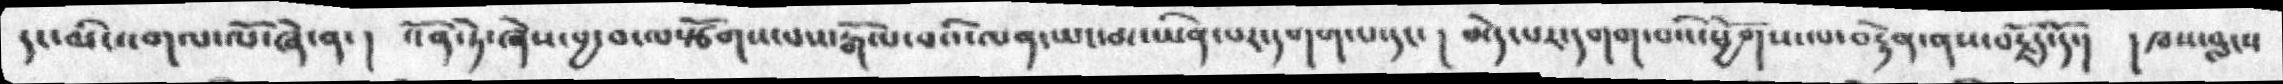དང་མི་འགལ་ལོ་ཞེས་ན་།  འོན་ཏེ་ཞེས་བྱ་བ་ལསྩོགས་པས་རྒོལ་བའི་ལན་ཡང་མ་ཡིན་པར་དགག་པ་དང་། མེད་པར་དགག་པའི་ཕྱོགས་ལ་བརྟེན་ནས་བརྗོད་དོ་།  །ཁས་བླངས
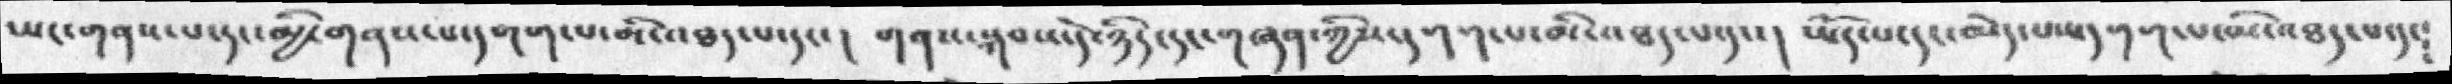ཡང་གནས་པ་དང་མྱི་གནས་པ་དགག་པ་མི་འཐད་པ་དང་། གནས་སྐབས་དེ་ཉིད་དང་གཞན་ཀྱིས་དགག་པ་མི་འཐད་པ་དང་།  ཡོད་པ་དང་མེད་པས་དགག་པ་མི་འཐད་པ་དང༴
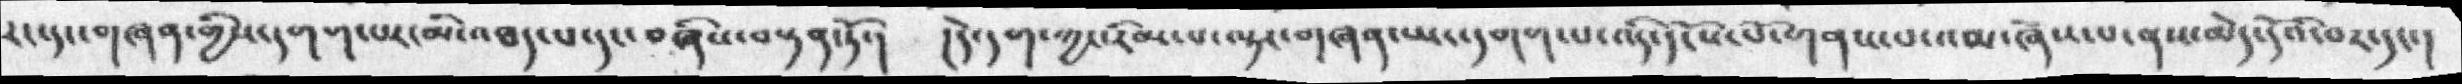རང་དང་གཞན་གྱིས་དགག་པར་མི་འཐད་པ་དང་བཞཱིས་བསྟན་ཏོ་།  །དེ་དག་ཀྱང་རིམ་པ་ལྟར་གཞན་ཡང་དགག་པ་འདི་དངོས་པོ་གནས་པ་འམ་ཞེས་པ་ནས་མེད་དེའི་བར་དང་།
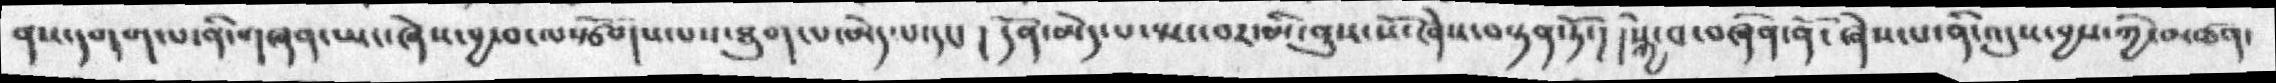ནས་དགག་པ་ནི་གཞན་ཡང་ཞེས་བྱ་བ་ལསྩོགས་པས་ཐུག་པ་མེད་པ་དང་། དོན་མེད་པ་སྤང་བར་མི་ནུས་སོ་ཞེས་བསྟན་ཏོ་། །སྐྱེ་བ་བཞིན་ནོ་ཞེས་པ་ནི་འདུས་བྱས་ཀྱི་མཚན་
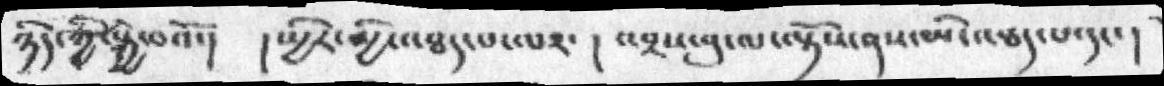ཉིད་ཀྱི་སྐྱེ་བའོ་།  །སྤྱིར་མྱི་འཐད་པ་ལར་། འབྲས་བུ་ལ་ལྟོས་ནས་མི་འཐད་པ་དང་།
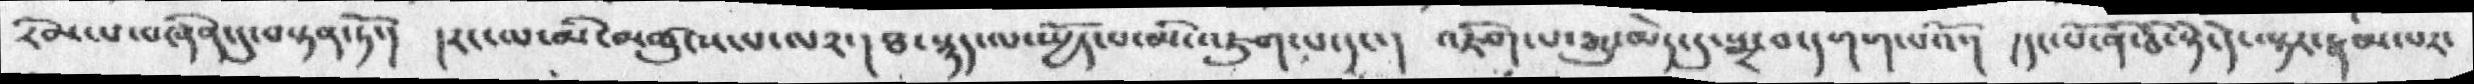རིམ་པ་བཞིན་དུ་བསྟན་ཏོ་།  །རང་ལ་མི་མཚུངས་པ་ལ༢་། ཐ་སྙད་ལ་སྤྱོད་པ་མི་འཇུག་པ་དང་།  འཇིག་པ་རྒྱུ་མེད་དུ་སྨྲ་བ་དགག་པའོ་།  །དང་པོ་ནི་ཅི་སྟེ་དེ་ལྟར་རྣམ་པར་
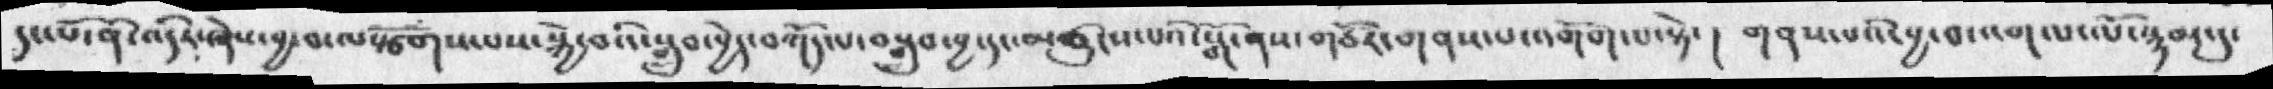དང་པོ་ནི་འདིར་ཞེས་བྱ་བ་ལསྩོགས་པས་སྐྱེ་བའི་སྒྲུབ་བྱེད་བཀོད་པ་བསྒྲུབ་བྱ་དང་མཚུངས་པའི་སྒོ་ནས་གཙོར་གནས་པ་འགོག་པ་སྟེ་།  གནས་པའི་བྱ་བ་འགལ་ལོ་སྙམ་དུ་
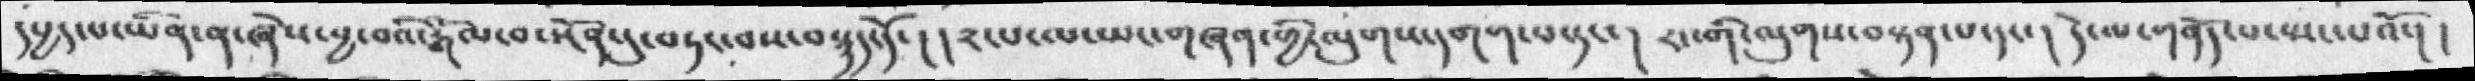དཔྱད་པ་ཡིན་ན་ཞེས་བྱ་བའི་རྒོལ་བ་སྔོན་དུ་བཏང་བས་བསྙད་དོ་། །༢་པ་ལ་ཡང་གཞན་གྱི་ལུགས་དགག་པ་དང་།  རང་གི་ལུགས་བསྟན་པ་དང་། དེ་ལ་གནོད་པ་སྤང་པའོ་། །
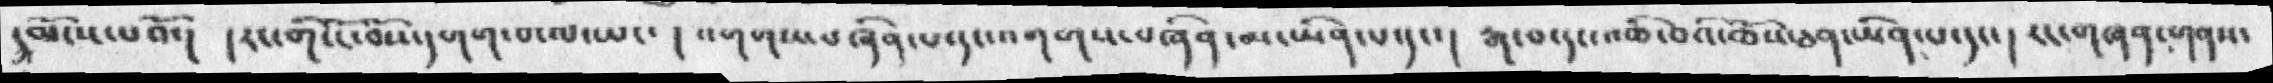དམོངས་པའོ་། རང་གི་ངོ་བོས་དགག་པ་ལ་ཡང་། འགགས་བཞིན་པ་དང་འགགས་བཞིན་མ་ཡིན་པ་དང་། རྒ་བ་དང་འཆི་བའི་ཆོས་ཅན་ཡིན་པ་དང་། རང་གཞན་གནས་
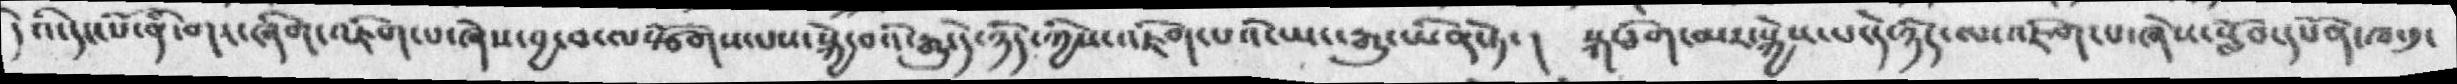དེའི་དང་པོ་ནི་གང་ཞིག་འཇིག་པ་ཞེས་བྱ་བ་ལསྩོགས་པས་སྐྱེ་བའི་རྒྱུ་དེ་ཉིད་ཀྱིས་འཇིག་པའི་ཡང་རྒྱུ་ཡིན་ཏེ་། སྐ་ཅིག་མར་སྐྱེས་པ་དེ་ཉིད་ལ་འཇིག་པ་ཞེས་སློབ་དཔོན་ཁ་༡་
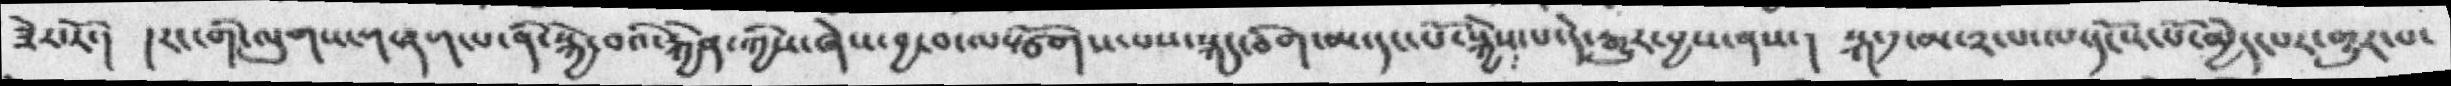ཟེར་རོ་།  །རང་གི་ལུགས་གཞག་པ་ནི་སྐྱེ་བའི་རྐྱེན་ཀྱིས་ཞེས་བྱ་བ་ལསྩོགས་པས་སྐད་ཅིག་མ་དང་པོ་སྐྱེས་པ་དེ་རྒྱུར་བྱས་ནས་།   སྐ་༡་མ་༢་པ་ལ་དངོས་པོ་མྱེད་པར་གྱུར་པ་
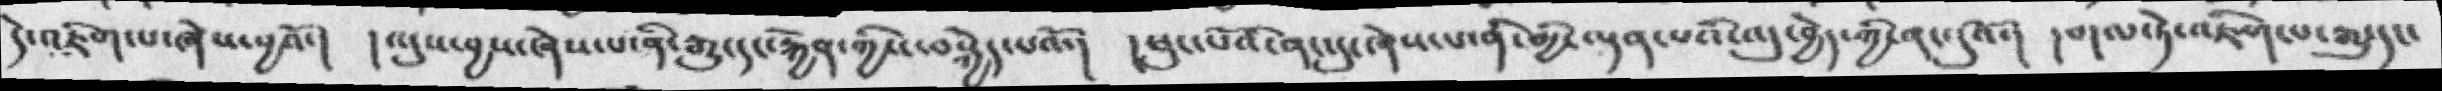དེ་འཇིག་པ་ཞེས་བྱའོ་།  ། འདུས་བྱས་ཞེས་པ་ནི་རྒྱུ་དང་རྐྱེན་ཀྱིས་བསྐྱེད་པའོ་།  །ཕུང་པོའི་ནང་དུ་ཞེས་པ་ནི་མྱི་ལྡན་པའི་འདུ་བྱེད་ཀྱི་ནང་དུའོ་། ། གལ་ཏེ་འཇིག་པ་རྒྱུ་དང་
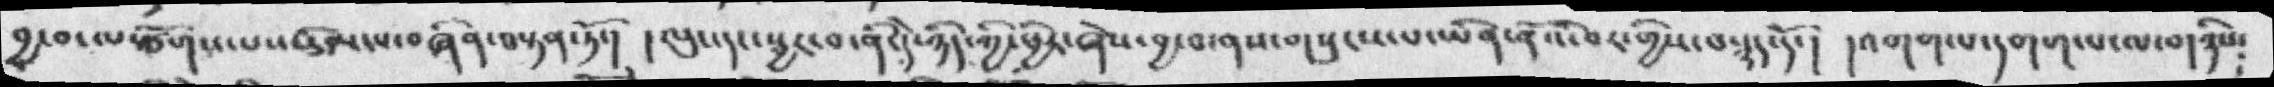བྱ་བ་ལསྩོགས་པས་ཅིམ་པ་བཞིན་བསྟན་ཏོ་།  ལུང་དང་སྦྱར་བ་ནི་དེ་ཉིད་ཀྱི་ཕྱིར་ཞེས་བྱ་ནས་གསུངས་པ་ཡིན་ནོའི་བར་གྱིས་བསྙད་དོ་།  །འགག་པ་དགག་པ་ལ་གཉིས༴་
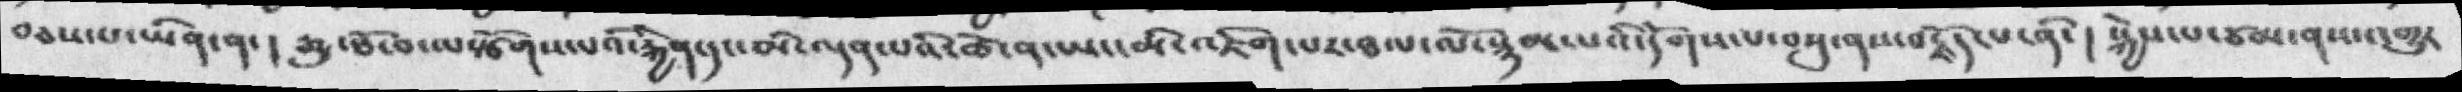བཅས་པ་ཡིན་ན་།  རྒྱུ་ཐོ་བ་ལསྩོགས་པའི་རྐྱེན་དང་མི་ལྡན་པའི་ཚེ་ན་ཡང་མི་འཇིག་པར་ཐལ་ལོ་སྙམ་པའི་དོགས་པ་བསུ་ནས་བརྗོད་པ་ནི་།  སྐྱེས་པ་ཙམ་ནས་འགྱུར་
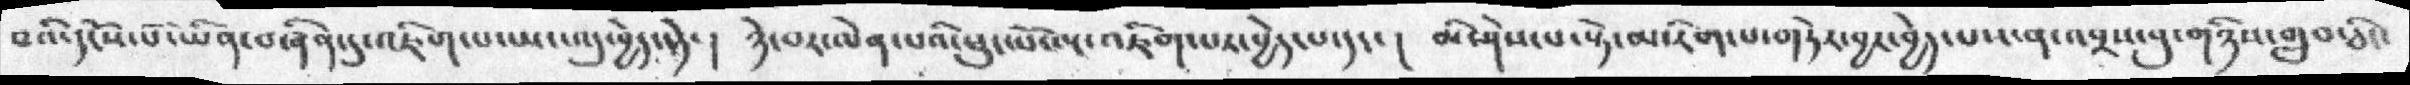བའི་དངོས་པོ་ཡིན་བཞིན་དུ་འཇིག་པ་ཡང་འདུ་བྱེད་སྟེ་། ཉེ་བར་ལེན་པའི་ཕུང་པོ་ལ་འཇིག་པར་བྱེད་པ་དང་། མི་ཤེས་པ་སྟེ་མ་རིག་པ་གཏེར་བྱར་བྱེད་པས་ན་འབྲས་བུ་གཉིས་གྲུབ་ཅིང་
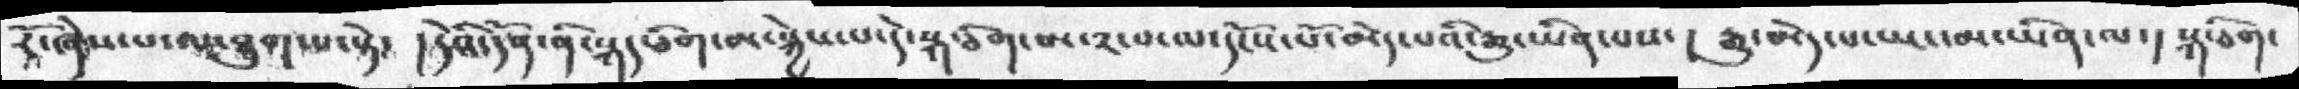རོ་ཞེས་པ་ལ་ྟུག་པ་སྟེ་ །དེའི་དོན་ནི་སྐད་ཅིག་མ་སྐྱེས་པ་དེ་སྐ་ཅིག་མ་༢་པ་ལ་དངོས་པོ་མེད་པའི་རྒྱུ་ཡིན་པས་། རྒྱུ་མེད་པ་ཡང་མ་ཡིན་ལ་། སྐ་ཅིག་
